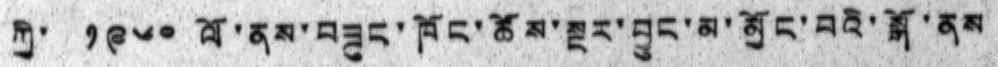ཀྱི་ ༡༩༦༠ ལོ་ནས་བཟུང་ཁོང་ཚོས་སྔར་བྱུང་མ་མྱོང་བའི་སྒོ་ནས
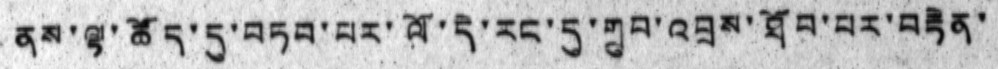ནས་ལྟ་ཚོད་དུ་བཏབ་པར་ལོ་དེ་རང་དུ་གྲུབ་འབྲས་ཐོབ་པར་བརྟེན་
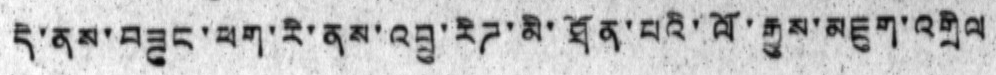དེ་ནས་བཟུང་ཕག་རི་ནས་འབྲུ་རིཌ་མི་ཐོན་པའི་ལོ་རྒྱུས་མཇུག་འགྲིལ
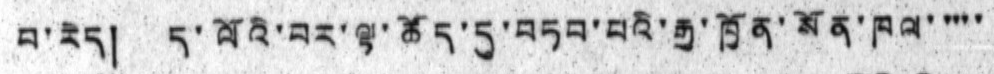པ་རེད། ད་ལོའི་བར་ལྟ་ཚོད་དུ་བཏབ་པའི་རྒྱ་ཁྱོན་སོན་ཁལ་་་་་
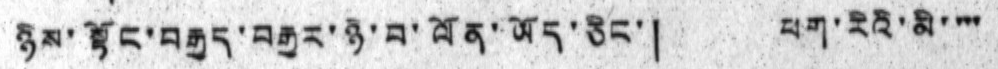ཉིས་སྟོང་བརྒྱད་བརྒྱར་ཉི་བ་ལོན་ཡོད་ཅིང་། ཕག་རིའི་མི་་་་
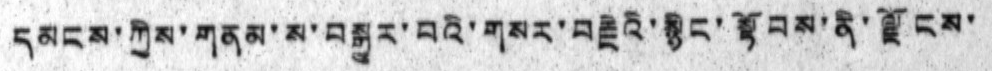དམངས་ཀྱིས་གནམ་ས་བསྒྱུར་བའི་གསར་བརྗེའི་སྙིང་སྟོབས་ནི་ལྗོངས་
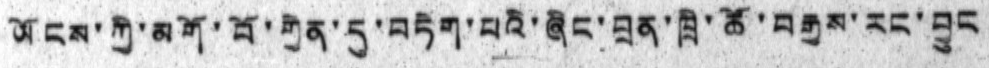ཡོངས་ཀྱི་མགོ་བོ་གྱེན་ཏུ་བཏེག་པའི་ཞིང་བྲན་ཁྲི་ཚོ་བརྒྱས་རང་བྱུང
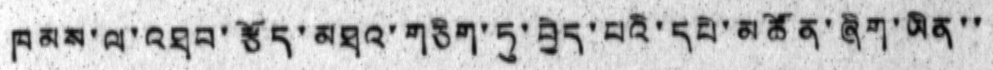ཁམས་ལ་འཐབ་རྩོད་མཐའ་གཅིག་ཏུ་བྱེད་པའི་དཔེ་མཚོན་ཞིག་ཡིན་་
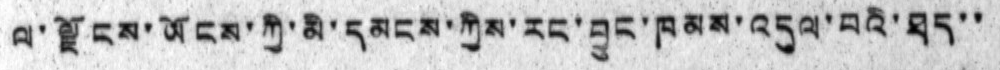ལ་ལྗོངས་ཡོངས་ཀྱི་མི་དམངས་ཀྱིས་རང་བྱུང་ཁམས་འདུལ་བའི་ཐད་་
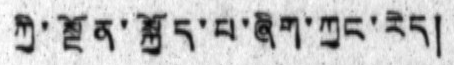ཀྱི་སྔོན་སྐྱོད་པ་ཞིག་ཀྱང་རེད།
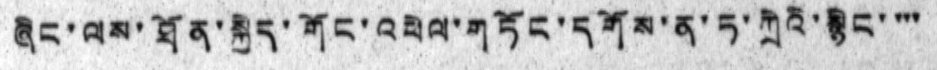ཞིང་ལས་ཐོན་སྐྱེད་གོང་འཕེལ་གཏོང་དགོས་ན་ཏ་ཀྲེའི་སྙིང་་་་
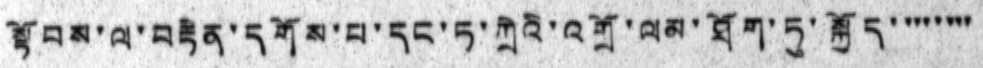སྟོབས་ལ་བརྟེན་དགོས་པ་དང་ཏ་ཀྲེའི་འགྲོ་ལམ་ཐོག་ཏུ་སྐྱོད་ ་་་་་་་
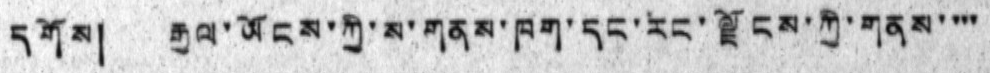དགོས། རྒྱལ་ཡོངས་ཀྱི་ས་གནས་ཁག་དང་རང་ལྗོངས་ཀྱི་གནས་་་་
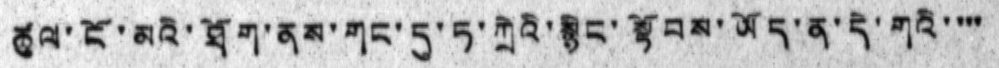ཚུལ་ངོ་མའི་ཐོག་ནས་གང་དུ་ཏ་ཀྲེའི་སྙིང་སྟོབས་ཡོད་ན་དེ་གའི་་་་
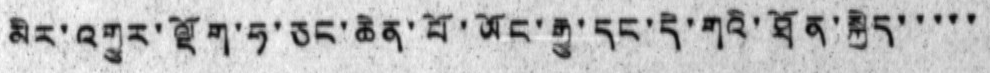མིར་འགྱུར་ལྡོག་ཧ་ཅང་ཆེན་པོ་ཡོང་རྒྱུ་དང་དེ་གའི་ཐོན་སྐྱེད་་་་་
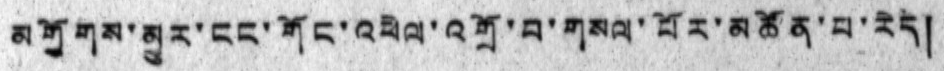མགྱོགས་མྱུར་ངང་གོང་འཕེལ་འགྲོ་བ་གསལ་པོར་མཚོན་པ་རེད།
